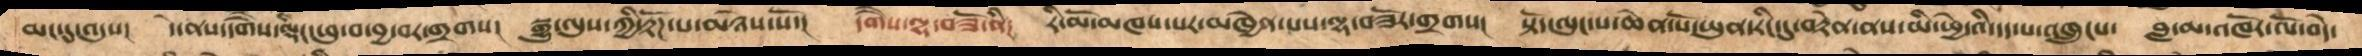མང་དུ་འདུས།  དེ་ནས་དགཻས་ལྡིང་ཕུ་བ་བྱ་བར་གྲགས།  སྒྱུ་ལུས་ཀྱི་རྟོཌ་པ་མཉེས་སོ་།  དགཻས་ལྷ་བཟོ་ནི།  རི་མོ་མཁས་པར་མཁྱེན་པས་ལྷ་བཟོར་གྲགས།  སྟོད་ལུང་པ་ཆེན་པོ་ཡུན་རིང་དུ་བསྟེན་ནས་མི་ཕྱེདའི་དད་པ་འཁྲུངས།  བླ་མ་འཁོར་ལོ་བདེ་
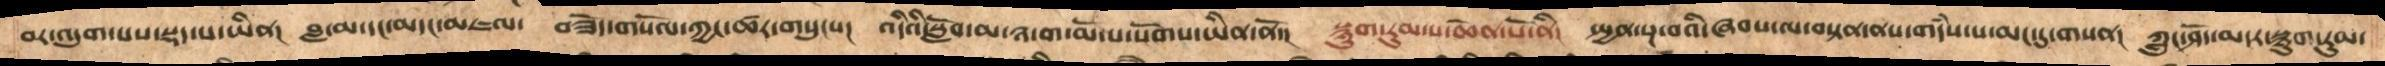བར་འདུག་པས་སྡད་པ་ཡིན།  བླ་མ་དང་མདང་མཇལ་  བཟོད་གསོལ་ཀྱང་ཚར་གསུངས།  འདིའི་སློབ་མ་ཉ་ག་མོ་པ་སོགས་ཡིན་ནོ།  སྙུག་རུམ་པ་ཆེན་པོ་ནི།  སྤྱན་སྔ་བའི་ཞབས་ལ་བསྟན་ནས་གདཾས་པ་མང་དུ་གསན།  ཀླུང་ཤོད་མདར་སྙུག་རུམ་
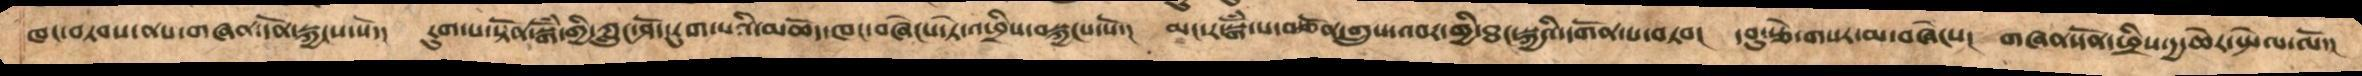ཁང་བཏབས་ནས་གཞན་དོན་སྐྱངས་སོ།   རུག་པ་སྟོན་སྒོཾ་གྱི་ཀླུང་ཤོད་རུག་པའི་མཆོད་ཁང་བཞེངས་ཏེ་འཕྲིས་བསྐྱངས་སོ་།  མང་ར་སྒོཾ་པ་བརྩོན་གྲུས་འབར་གྱི་ཐང་སྐྱའི་དགོན་པ་བཏབ།  དབུ་རྩེ་གསར་མ་བཞེངས།  གཞན་དོན་ཕྲིས་དྱ་ཆེར་སྤེལ་ལོ་།
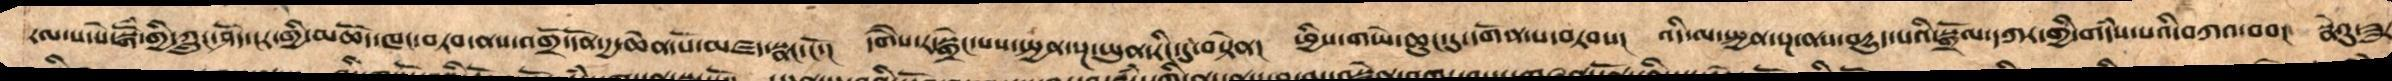རལ་པ་སེ་སྒོཾ་གྱི་ཀླུང་ཤོད་དར་གྱི་མཆོད་ཁང་བཏབ་ནས་འགྲོ་དོན་དྱ་ཆེན་པོ་མཛད་སྣང་ངོ་།  དགཻས་ར་སྒྲེང་པས་སྤྱན་སྔ་ཡུན་རིང་དུ་བསྟེན།  ཕྱིས་གཡེ་ཆུང་དུ་དགོན་པ་བཏབས།  འདི་ལ་སྤྱན་སྔ་ནས་བདྱུད་པའི་སྒྲོལ་དཀར་གྱི་གདཾས་པའི་བཀའ་བབ།  སྣེའུ་ཟུར
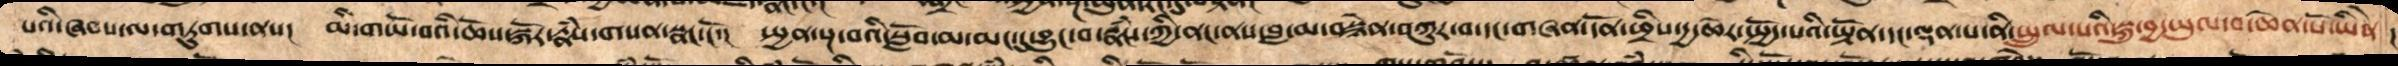པའི་ཞབས་ལ་གཏུགས་ནས།  མི་གཡོ་བའི་ཆོས་སྐོར་རྣཾས་གསན་སྣང་ངོ་།  སྤྱན་སྔ་བའི་སློབ་མ་མང་དུ་བྱུང་བ་རྣཾས་ཀྱི་ནང་ནས་བླ་མ་བསྙེན་བཀུར་བ་དང་གཞན་དོན་ཕྲིས་དྱ་ཆེར་སྤྱོད་པའི་ཡྟོན་དང་ལྡན་པ་ནི་སྤྲུལ་པའི་སྐུ་བྱ་ཡུལ་བ་ཆེན་པོ་ཡིནེ།
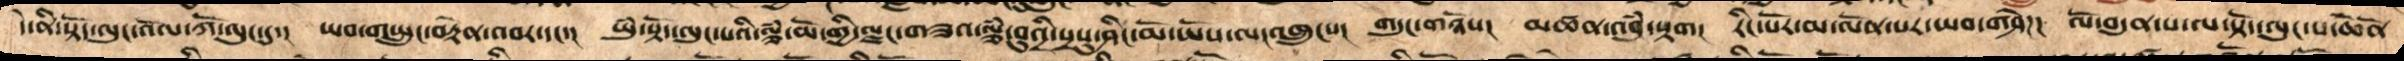དེ་ནི་སྟོད་ལུང་འོལ་ཀོ་ལུང་དུ་།   ཡབ་གཡྲུང་བརྟེན་་འབར་དང་།   ཡུཾ་སྟོད་ལུང་པའི་ལྕཾ་མོ་གྱི་ལྗང་གཟའ་ལྕཾ་བུའི་སྲསུ་ཤིང་མོ་ཡོས་ལ་འཁྲུངས།  གདུང་གཉོས།  མཚན་འབུཾ་སྟག།  རིང་པོར་མ་ལོན་པར་ཡབ་གཤེཌ།  ལོ་བདུན་པ་ལ་སྟོད་ལུང་པ་ཆེནོ་
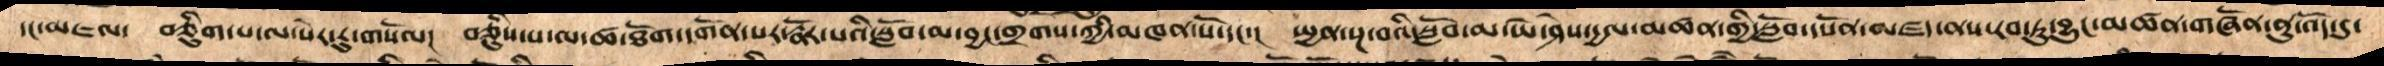དང་མཇལ་  བཅིུག་པ་ལ་སེར་རུ་གསོལ།  བཅིུས་པ་ལ་ཚ་ཐོག་དགོན་པར་རྣོར་པའི་སློབ་མ་བྱང་གྲགས་ཀྱིས་མཁན་པོ་དང་།  སྤྱན་སྔ་བའི་སློབ་མ་ཡེ་ཤེས་དྱལ་མཚན་གྱི་སློབ་དཔོན་མཛད་ནས་རབ་ཏུ་བྱུང་མཚན་གཞོན་ནུ་འོད་དུ་
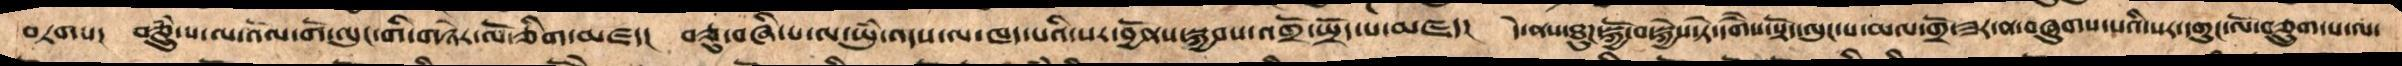བཏགས། བཅྲུཾ་པ་ལ་འོལ་གོ་ལུང་གི་གཉེར་ལོ་ཅིག་མཛད།  བཅུ་བཞི་པ་ལ་ཡུཾ་འདའ་ལ་ཁད་པའི་སར་བྱོནས་སྐྱབས་འགྲོ་སྤྲོད་པ་མཛད།  དེ་ནས་ཐུཌ་སྐྱོ་བསྐྱེས་ཏེ་དགཻས་སྟོད་ལུང་པ་མལ་གྲོ་ཟར་ན་བཞུགས་པའི་སར་དགུང་ལོ་བཅྲུག་པ་ལ་
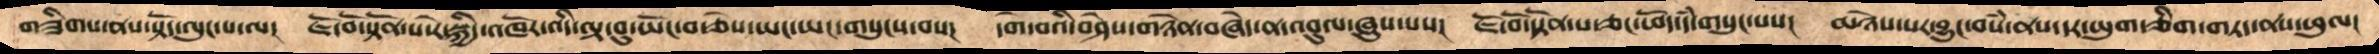གཟིགས་ནས་སྟོད་ལུང་པ་ལ།  ཇོ་བོ་སྟོན་པ་རེ་སྐྱིད་འཁོར་འདི་ལྟ་བུ་ཡོང་བ་ཅེས་ཡང་ཡང་གསུངས་བས།  དགེ་བའི་བཤེས་གཉེན་བཞེད་ན་འབུལ་ཞུས་པས།  ཇོ་བོ་སྟོན་པ་ཅང་ཕོད་དཾ་གསུང་པས།  མཉེས་པར་བྱུང་བསཾ་ནས་དར་ཡུག་ཅིག་གཏད་ནས་ཕུལ།
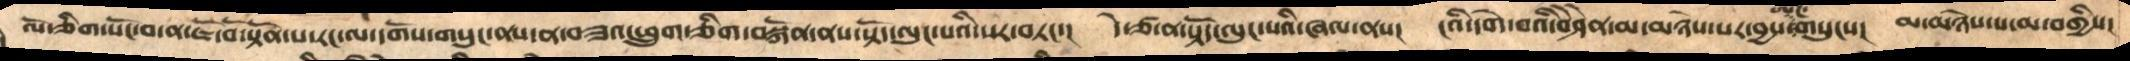ལོ་ཅིག་སོང་བ་ན་ཇོ་བོ་སྟོན་པ་རང་ལ་དགོས་གསུང་ནས་ན་བཟའ་ཕྲུག་ཅིག་བསྐོན་ནས་སྟོད་ལུང་པའི་སར་བཏང་།   དེ་ཙ་ན་སྟོད་ལུང་པའི་ཞལ་ནས།  ངའི་དགེ་བའི་བཤཻན་མ་མཉེས་པར་བྱས་ཨང་གསུངས།  མ་མཉེས་པར་མ་བགྱིས།
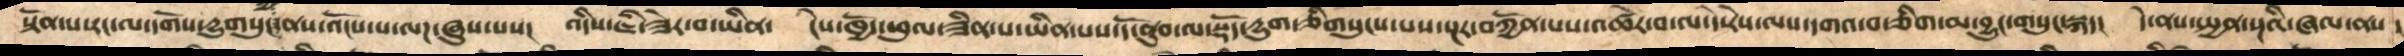སྟོན་པ་རང་ལ་དགོས་དྱུགསུང་ནས་འོངས་པ་ལཌ་ཞུས་པས།  འདིས་ཇི་ཟེར་བ་ཡིན།  ངེས་ཁྱོད་ཕུལ་ཟིན་པ་ཡིན་པས་དོ་ནུབ་ལ་སྡོད་དྱུག་ཅིགསུངས་པས་སྔར་བཀྱོན་པས་འཚེར་བ་ལ་དེ་རེས་ལས་དགའ་བ་ཅིག་མ་བྱུང་གསུང་སྐད།  དེ་ནས་སྤྱན་སྔའི་ཞལ་ནས །
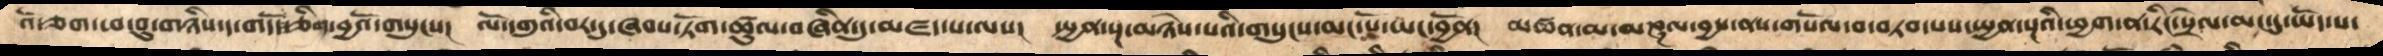འོ་ཅག་ཕ་བུ་གཉིས་ད་གདོད་ཅིག་བྱའོ་གསུངས།  ལོ་དགུའི་བར་དུ་ཞབས་ཏོག་ཚུལ་བཞིན་དུ་མཛད་པ་ལས།   སྤྱན་སྔ་མཉེས་པའི་གསུངས་མང་པོ་ཡང་བྱོན།   མཚན་མ་མཎྜལ་བྱས་ནས་གསོལ་བ་བཏབ་པས་སྤྱན་སྔའི་ཕྱག་ན་རིང་སྲེལ་མང་དུ་ཡོད་པ་
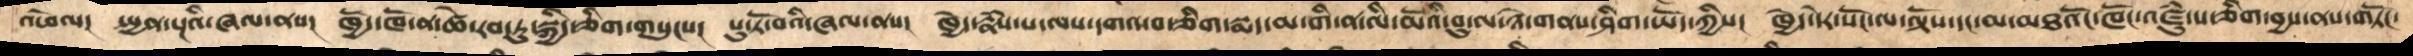འཕེལ།  སྤྱན་སྔའི་ཞལ་ནས།  ཁྱོད་ཁོ་ན་ཚེ་རབ་ཏུ་སྐྱིད་ཅིག་གསུང་ས།  པུ་ཏོ་བའི་ཞལ་ནས།  ཁྱེད་རྣཾས་པ་ལས་དགའ་བ་ཅིག་སྨད་མ་གི་ན་ལི་མོའི་བུ་ལ་ཉེ་གནས་ཤིག་ཡོད་ཀྱིས།   ཁྱོད་དེར་སོང་ལ་ལྟོས་དང་མ་མཐའོང་ཁོང་འཛུཾ་པ་ཅིག་བྱས་ནས་གཏོང་
